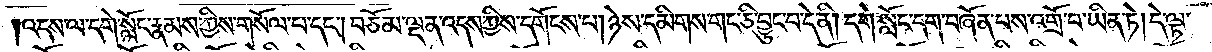འདས་ལ་དགེ་སློང་རྣམས་ཀྱིས་གསོལ་པ་དང༌། བཅོམ་ལྡན་འདས་ཀྱིས་དགོངས་པ། ཉེས་དམིགས་གང་ཅི་བྱུང་བ་དེ་ནི། དགེ་སློང་དག་བཞོན་པས་འགྲོ་བ་ཡིན་ཏེ། དེ་ལྟ་
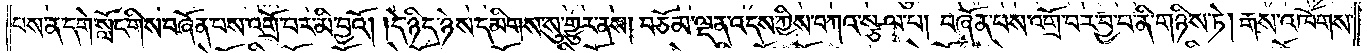བས་ན་དགེ་སློང་གིས་བཞོན་པས་འགྲོ་བར་མི་བྱའོ། །དེ་ཉིད་ཉེས་དམིགས་སུ་གྱུར་ནས། བཅོམ་ལྡན་འདས་ཀྱིས་བཀའ་སྩལ་པ། བཞོན་པས་འགྲོ་བར་བྱ་བ་ནི་གཉིས་ཏེ། རྒས་འཁོགས་
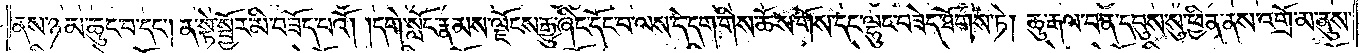ནས་ཉམ་ཆུང་པ་དང༌། ན་སྟེ་སྦྱོར་མི་བཟོད་པའོ།    །དགེ་སློང་རྣམས་ལྗོངས་རྒྱུ་ཞིང་དོང་བ་ལས་དེ་དག་གིས་ཆོས་གོས་དང་ལྷུང་བཟེད་ཐོགས་ཏེ། ཆུ་རྒལ་བ་ན་དབུས་སུ་ཕྱིན་ནས་འགྲོ་མ་ནུས་
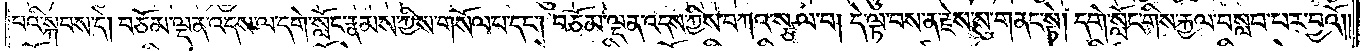པའི་སྐབས་དེ། བཅོམ་ལྡན་འདས་ལ་དགེ་སློང་རྣམས་ཀྱིས་གསོལ་པ་དང༌། བཅོམ་ལྡན་འདས་ཀྱིས་བཀའ་སྩལ་པ། དེ་ལྟ་བས་ན་རྗེས་སུ་གནང་སྟེ། དགེ་སློང་གིས་རྐྱལ་བསླབ་པར་བྱའོ༎
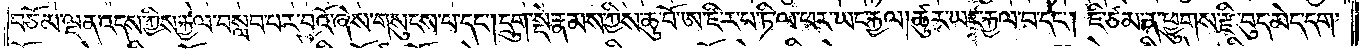བཅོམ་ལྡན་འདས་ཀྱིས་རྐྱལ་བསླབ་པར་བྱའོ་ཞེས་གསུངས་པ་དང༌། དྲུག་སྡེ་རྣམས་ཀྱིས་ཆུ་བོ་ཨ་ཇི་ར་པ་ཏི་ལ་ཕར་ཡང་རྐྱལ། ཚུར་ཡང་རྐྱལ་པ་དང༌། ཇི་ཙམ་ན་ཕྱུགས་རྫི་བུད་མེད་དག་
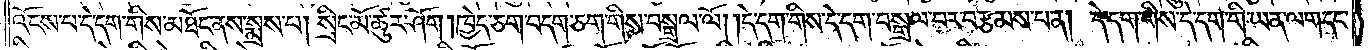འོངས་བ་དེ་དག་གིས་མཐོང་ནས་སྨྲས་པ། སྲིང་མོ་ཚུར་ཤོག །ཁྱེད་ཅག་བདག་ཅག་གིས་བསྒྲལ་ལོ། །དེ་དག་གིས་དེ་དག་བསྒྲལ་བར་བརྩམས་པ་ན། དེ་དག་གིས་དེ་དག་གི་ཡན་ལག་དང་
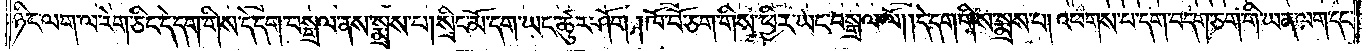ཉིང་ལག་ལ་རེག་ཅིང་དེ་དག་གིས་དེ་དག་བསྒྲལ་ནས་སྨྲས་པ། སྲིང་མོ་དག་ཡང་ཚུར་ཤོག །ཁོ་བོ་ཅག་གིས་ཕྱིར་ཡང་བསྒྲལ་ལོ། །དེ་དག་གིས་སྨྲས་པ། འཕགས་པ་དག་བདག་ཅག་གི་ཡན་ལག་དང་
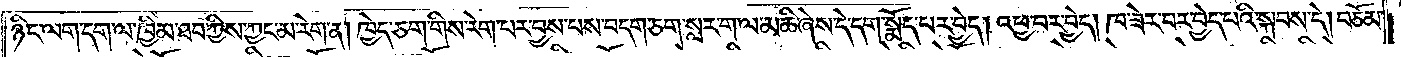ཉིང་ལག་དག་ལ་ཁྱིམ་ཐབ་ཀྱིས་ཀྱང་མ་རེག་ན། ཁྱེད་ཅག་གིས་རེག་པར་བྱས་པས་བདག་ཅག་སླར་ག་ལ་མཆི་ཞེས་དེ་དག་སྨོད་པར་བྱེད། འཕྱ་བར་བྱེད། ཁ་ཟེར་བར་བྱེད་པའི་སྐབས་དེ། བཅོམ་
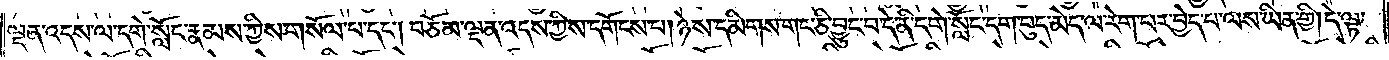ལྡན་འདས་ལ་དགེ་སློང་རྣམས་ཀྱིས་གསོལ་པ་དང༌། བཅོམ་ལྡན་འདས་ཀྱིས་དགོངས་པ། ཉེས་དམིགས་གང་ཅི་བྱུང་བ་དེ་ནི་དགེ་སློང་དག་བུད་མེད་ལ་རེག་པར་བྱེད་པ་ལས་ཡིན་གྱི། དེ་ལྟ་
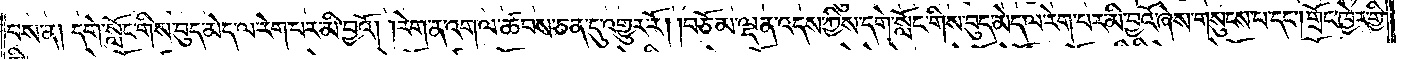བས་ན། དགེ་སློང་གིས་བུད་མེད་ལ་རེག་པར་མི་བྱའོ། །རེག་ན་འགལ་ཚབས་ཅན་དུ་འགྱུར་རོ། །བཅོམ་ལྡན་འདས་ཀྱིས་དགེ་སློང་གིས་བུད་མེད་ལ་རེག་པར་མི་བྱའོ་ཞེས་གསུངས་པ་དང༌། གྲོང་ཁྱེར་གྱི་
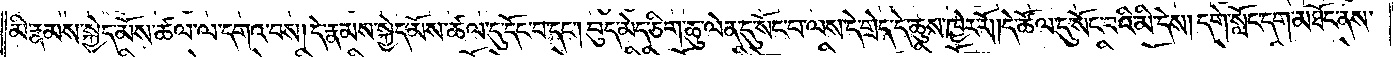མི་རྣམས་སྐྱེད་མོས་ཚལ་ལ་དགའ་བས། དེ་རྣམས་སྐྱེད་མོས་ཚལ་དུ་དོང་བ་དང༌། བུད་མེད་ཅིག་ཆུ་ལེན་དུ་སོང་བ་ལས་དེ་གྲེད་དེ་ཆུས་ཁྱེར་རོ། །དེ་ཚོལ་དུ་སོང་བའི་མི་དེས། དགེ་སློང་དག་མཐོང་ནས་
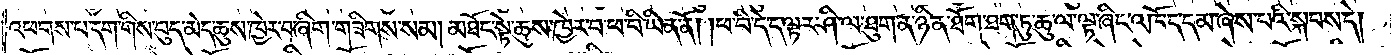འཕགས་པ་དག་གིས་བུད་མེད་ཆུས་ཁྱེར་བ་ཞིག་གཟིགས་སམ། མཐོང་སྟེ་ཆུས་ཁྱེར་བ་ཕ་བི་ཡིན་ནོ། །ཕ་བི་དེ་ད་ལྟར་ཤི་ལ་ཐུག་ན་ཉིན་ཐོག་ཐག་ཏུ་ཆུ་ལ་ལྟ་ཞིང་འཁོད་དམ་ཞེས་པའི་སྐབས་དེ།
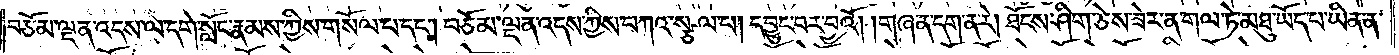བཅོམ་ལྡན་འདས་ལ་དགེ་སློང་རྣམས་ཀྱིས་གསོལ་པ་དང༌། བཅོམ་ལྡན་འདས་ཀྱིས་བཀའ་སྩལ་པ། དབྱུང་བར་བྱའོ། །གཞན་དག་ན་རེ། ཐོངས་ཤིག་ཅེས་ཟེར་ན་གལ་ཏེ་མཐུ་ཡོད་པ་ཡིན་ན་
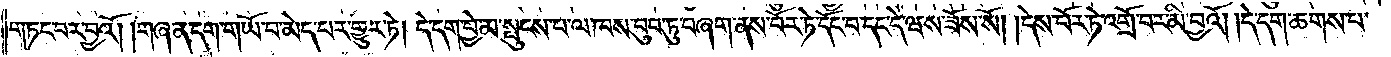གཏང་བར་བྱའོ། །གཞན་དག་གཡོ་བ་མེད་པར་གྱུར་ཏེ། དེ་དག་བྱེ་མ་སྤུངས་པ་ལ་ཁས་བུབ་ཏུ་བཞག་ནས་བོར་ཏེ་དོང་བ་དང་དེ་ཝས་ཟོས་སོ། །དེས་བོར་ཏེ་འགྲོ་བར་མི་བྱའོ། །དེ་དག་ཆགས་པ་
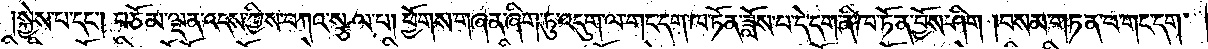།སྐྱེས་པ་དང༌། བཅོམ་ལྡན་འདས་ཀྱིས་བཀའ་སྩལ་པ། ཕྱོགས་གཞན་ཞིག་ཏུ་འདུག་ལ་གང་དག་ཁ་ཏོན་ཟློས་པ་དེ་དག་ནི་ཁ་ཏོན་བྱོས་ཤིག །བསམ་གཏན་པ་གང་དག་
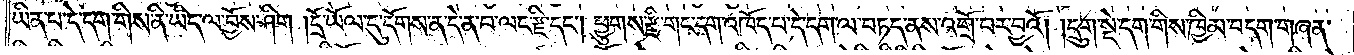ཡིན་པ་དེ་དག་གིས་ནི་ཡིད་ལ་བྱོས་ཤིག །དྲོ་ཡོལ་དུ་དོགས་ན་དེ་ན་བ་ལང་རྫི་དང༌། ཕྱུགས་རྫི་གང་དག་འཁོད་པ་དེ་དག་ལ་བཏད་ནས་འགྲོ་བར་བྱའོ།    །དྲུག་སྡེ་དག་གིས་ཁྱིམ་བདག་གཞན་
